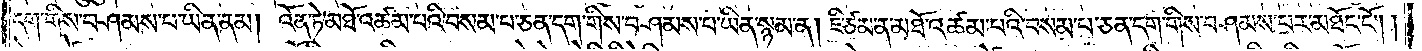དག་གིས་བཤམས་པ་ཡིན་ནམ། འོན་ཏེ་མཐོ་འཚམ་པའི་བསམ་པ་ཅན་དག་གིས་བཤམས་པ་ཡིན་སྙམ་ན། ཇི་ཙམ་ན་མཐོ་འཚམ་པའི་བསམ་པ་ཅན་དག་གིས་བཤམས་པར་མཐོང་ངོ༌། །
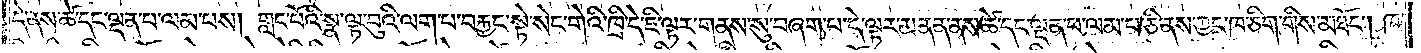དེ་ནས་ཚེ་དང་ལྡན་པ་ལམ་པས། གླང་པོའི་སྣ་ལྟ་བུའི་ལག་པ་བརྐྱང་སྟེ་སེང་གེའི་ཁྲི་དེ་ཇི་ལྟར་གནས་སུ་བཞག་པ་དེ་ལྟར་མནན་ནས་ཚེ་དང་ལྡན་པ་ལམ་པ་ཅི་ནས་ཀྱང་ཁ་ཅིག་གིས་མཐོང༌། ཁ་
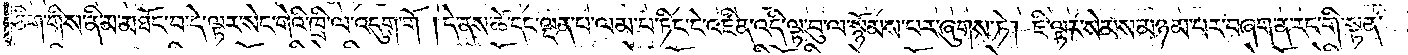ཅིག་གིས་ནི་མ་མཐོང་བ་དེ་ལྟར་སེང་གེའི་ཁྲི་ལ་འདུག་གོ །དེ་ནས་ཚེ་དང་ལྡན་པ་ལམ་པ་ཏིང་ངེ་འཛིན་འདི་ལྟ་བུ་ལ་སྙོམས་པར་ཞུགས་ཏེ། ཇི་ལྟར་སེམས་མཉམ་པར་བཞག་ན་རང་གི་སྟན་
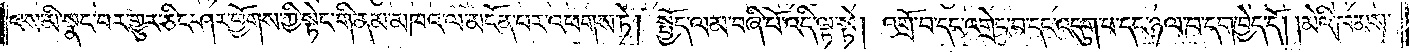ལས་མི་སྣང་བར་གྱུར་ཅིང་ཤར་ཕྱོགས་ཀྱི་སྟེང་གི་ནམ་མཁའ་ལ་མངོན་པར་འཕགས་ཏེ། སྤྱོད་ལམ་བཞི་པོ་འདི་ལྟ་སྟེ། འགྲོ་བ་དང་འགྲེང་བ་དང་འདུག་པ་དང་ཉལ་བ་དག་བྱེད་དོ། །མེའི་ཁམས་
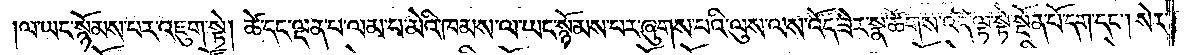ལ་ཡང་སྙོམས་པར་འཇུག་སྟེ། ཚེ་དང་ལྡན་པ་ལམ་པ་མེའི་ཁམས་ལ་ཡང་སྙོམས་པར་ཞུགས་པའི་ལུས་ལས་འོད་ཟེར་སྣ་ཚོགས་འདི་ལྟ་སྟེ་སྔོན་པོ་དག་དང༌། སེར་
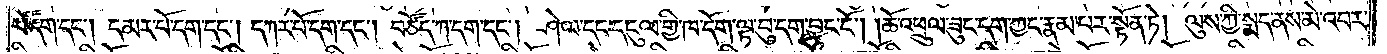པོ་དག་དང༌། དམར་པོ་དག་དང༌། དཀར་པོ་དག་དང༌། བཙོད་ཀ་དག་དང༌། ཤེལ་དང་དངུལ་གྱི་ཁ་དོག་ལྟ་བུ་དག་བྱུང་ངོ༌། །ཆོ་འཕྲུལ་ཟུང་དག་ཀྱང་རྣམ་པར་སྟོན་ཏེ། ལུས་ཀྱི་སྨད་ནས་མེ་འབར་
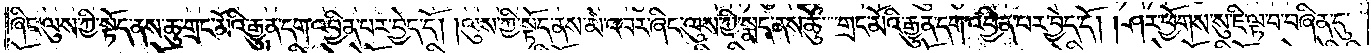ཞིང་ལུས་ཀྱི་སྟོད་ནས་ཆུ་གྲང་མོའི་རྒྱུན་དག་འབྱིན་པར་བྱེད་དོ། །ལུས་ཀྱི་སྟོད་ནས་མེ་འབར་ཞིང་ལུས་ཀྱི་སྨད་ནས་ཆུ་གྲང་མོའི་རྒྱུན་དག་འབྱིན་པར་བྱེད་དོ། །ཤར་ཕྱོགས་སུ་ཇི་ལྟ་བ་བཞིན་དུ་
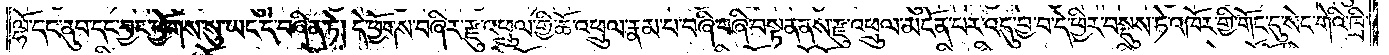ལྷོ་དང་ནུབ་དང་བྱང་ཕྱོགས་སུ་ཡང་དེ་བཞིན་ཏེ། དེ་ཕྱོགས་བཞིར་རྫུ་འཕྲུལ་གྱི་ཆོ་འཕྲུལ་རྣམ་པ་བཞི་བཞི་བསྟན་ནས་རྫུ་འཕྲུལ་མངོན་པར་འདུ་བྱ་བ་དེ་ཕྱིར་བསྡུས་ཏེ་འཁོར་གྱི་གོང་དུ་སེང་གེའི་ཁྲི་
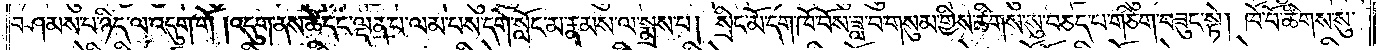བཤམས་པ་ཉིད་ལ་འདུག་གོ །འདུག་ནས་ཚེ་དང་ལྡན་པ་ལམ་པས་དགེ་སློང་མ་རྣམས་ལ་སྨྲས་པ། སྲིང་མོ་དག་ཁོ་བོས་ཟླ་བ་གསུམ་གྱིས་ཚིགས་སུ་བཅད་པ་གཅིག་བཟུང་སྟེ། ཁོ་བོ་ཚིགས་སུ་
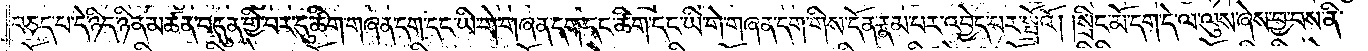བཅད་པ་དེ་ཉིད་ཉིན་མཚན་བདུན་གྱི་བར་དུ་ཚིག་གཞན་དག་དང་ཡི་གེ་གཞན་དག་དང་ཚིག་དང་ཡི་གེ་གཞན་དག་གིས་དོན་རྣམ་པར་འབྱེད་པར་སྤྲོའོ། །སྲིང་མོ་དག་དེ་ལ་ལུས་ཞེས་བྱ་བས་ནི་
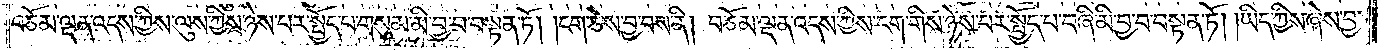བཅོམ་ལྡན་འདས་ཀྱིས་ལུས་ཀྱིས་ཉེས་པར་སྤྱོད་པ་གསུམ་མི་བྱ་བ་བསྟན་ཏོ། །ངག་ཅེས་བྱ་བས་ནི། བཅོམ་ལྡན་འདས་ཀྱིས་ངག་གིས་ཉེས་པར་སྤྱོད་པ་བཞི་མི་བྱ་བ་བསྟན་ཏོ། །ཡིད་ཀྱིས་ཞེས་བྱ་
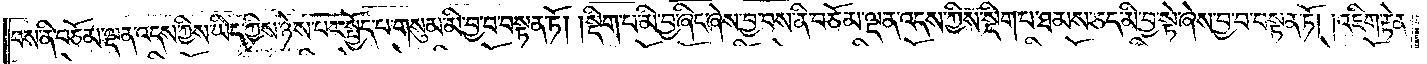བས་ནི་བཅོམ་ལྡན་འདས་ཀྱིས་ཡིད་ཀྱིས་ཉེས་པར་སྤྱོད་པ་གསུམ་མི་བྱ་བ་བསྟན་ཏོ། །སྡིག་པ་མི་བྱ་ཞིང་ཞེས་བྱ་བས་ནི་བཅོམ་ལྡན་འདས་ཀྱིས་སྡིག་པ་ཐམས་ཅད་མི་བྱ་སྟེ་ཞེས་བྱ་བ་བསྟན་ཏོ། །འཇིག་རྟེན་
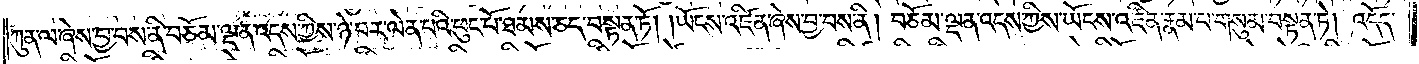ཀུན་ལ་ཞེས་བྱ་བས་ནི་བཅོམ་ལྡན་འདས་ཀྱིས་ཉེ་བར་ལེན་པའི་ཕུང་པོ་ཐམས་ཅད་བསྟན་ཏོ། །ཡོངས་འཛིན་ཞེས་བྱ་བས་ནི། བཅོམ་ལྡན་འདས་ཀྱིས་ཡོངས་འཛིན་རྣམ་པ་གསུམ་བསྟན་ཏེ། འདོད་
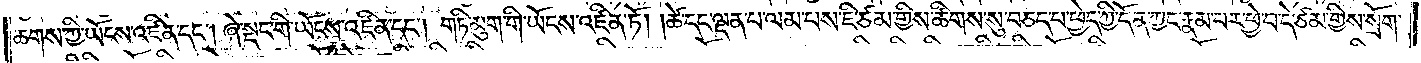ཆགས་ཀྱི་ཡོངས་འཛིན་དང༌། ཞེ་སྡང་གི་ཡོངས་འཛིན་དང༌། གཏི་མུག་གི་ཡོངས་འཛིན་ཏོ། །ཚེ་དང་ལྡན་པ་ལམ་པས་ཇི་ཙམ་གྱིས་ཚིགས་སུ་བཅད་པ་ཕྱེད་ཀྱི་དོན་ཀྱང་རྣམ་པར་ཕྱེ་བ་དེ་ཙམ་གྱིས་སྲོག་
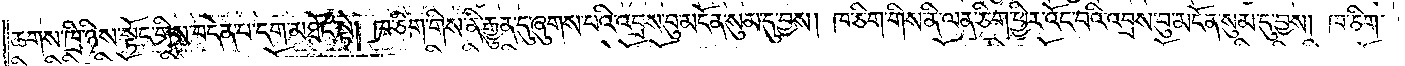ཆགས་ཁྲི་ཉིས་སྟོང་གིས་བདེན་པ་དག་མཐོང་སྟེ། ཁ་ཅིག་གིས་ནི་རྒྱུན་དུ་ཞུགས་པའི་འབྲས་བུ་མངོན་སུམ་དུ་བྱས། ཁ་ཅིག་གིས་ནི་ལན་ཅིག་ཕྱིར་འོང་བའི་འབྲས་བུ་མངོན་སུམ་དུ་བྱས། ཁ་ཅིག་
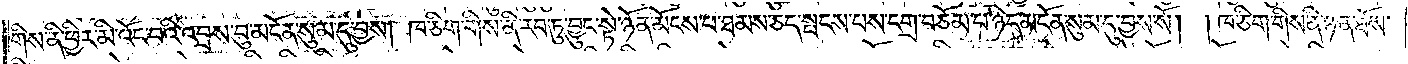གིས་ནི་ཕྱིར་མི་འོང་བའི་འབྲས་བུ་མངོན་སུམ་དུ་བྱས། ཁ་ཅིག་གིས་ནི་རབ་ཏུ་བྱུང་སྟེ་ཉོན་མོངས་པ་ཐམས་ཅད་སྤངས་པས་དགྲ་བཅོམ་པ་ཉིད་མངོན་སུམ་དུ་བྱས་སོ། །ཁ་ཅིག་གིས་ནི་ཉན་ཐོས་
